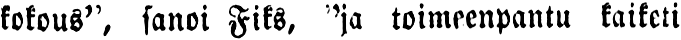kokous", sanoi Fiks, "ja toimeenpantu kaiketi
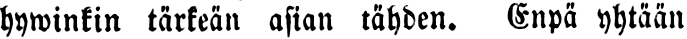hywinkin tärkeän asian tähden. Enpä yhtään
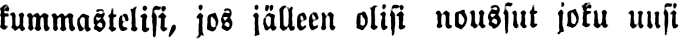kummastelisi, jos jälleen olisi noussut joku uusi
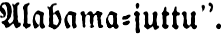Alabama-juttu".
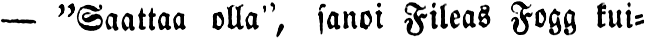— "Saattaa olla ", sanoi Fileas Fogg tui-
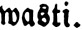wasti.
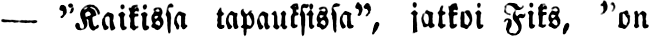— "Kaikissa tapauksissa", jatkoi Fiks, "on
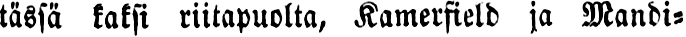tässä kaksi riitapuolta, Kamerfield ja Mandi-
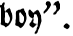boy".
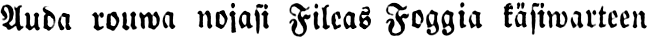Auda rouwa nojasi Fileas Foggia käsiwarteen
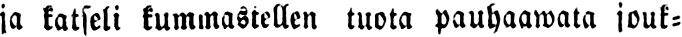ja katseli kummastellen tuota pauhaawata jouk-
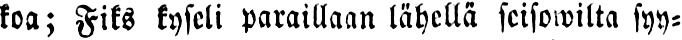koa; Fiks kyseli paraillaan lähellä seisowilta syy-
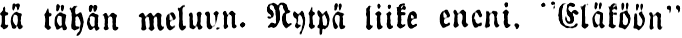tä tähän meluun. Nytpä liike eneni. "Eläköön"
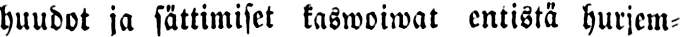huudot ja sättimiset kaswoiwat entistä hurjem-
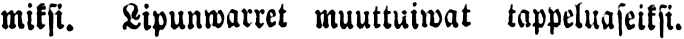miksi. Lipunwarret muuttuiwat tappeluaseiksi.
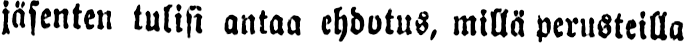jäsenten tulisi antaa ehdotus, millä perusteilla
